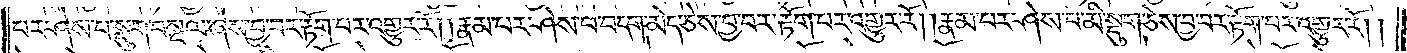པར་ཤེས་པ་སྡུག་བསྔལ་ཞེས་བྱ་བར་རྟོག་པར་འགྱུར་རོ། །རྣམ་པར་ཤེས་པ་བདག་མེད་ཅེས་བྱ་བར་རྟོག་པར་འགྱུར་རོ། །རྣམ་པར་ཤེས་པ་མི་སྡུག་ཅེས་བྱ་བར་རྟོག་པར་འགྱུར་རོ། །
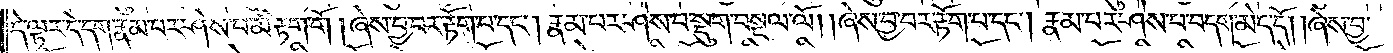དེ་ལྟར་དེ་དག་རྣམ་པར་ཤེས་པ་མི་རྟག་གོ། །ཞེས་བྱ་བར་རྟོག་པ་དང༌། རྣམ་པར་ཤེས་པ་སྡུག་བསྔལ་ལོ། །ཞེས་བྱ་བར་རྟོག་པ་དང༌། རྣམ་པར་ཤེས་པ་བདག་མེད་དོ། །ཞེས་བྱ་
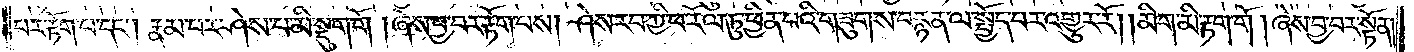པར་རྟོག་པ་དང༌། རྣམ་པར་ཤེས་པ་མི་སྡུག་གོ། །ཞེས་བྱ་བར་རྟོག་པས། ཤེས་རབ་ཀྱི་ཕ་རོལ་ཏུ་ཕྱིན་པའི་གཟུགས་བརྙན་ལ་སྤྱོད་པར་འགྱུར་རོ། །མིག་མི་རྟག་གོ། ཞེས་བྱ་བར་སྟོན།
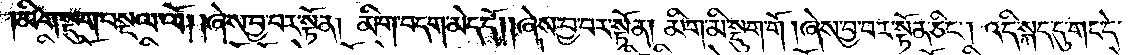མིག་སྡུག་བསྔལ་ལོ། །ཞེས་བྱ་བར་སྟོན། མིག་བདག་མེད་དོ། །ཞེས་བྱ་བར་སྟོན། མིག་མི་སྡུག་གོ། ཞེས་བྱ་བར་སྟོན་ཅིང༌། འདི་སྐད་དུ་གང་དེ་
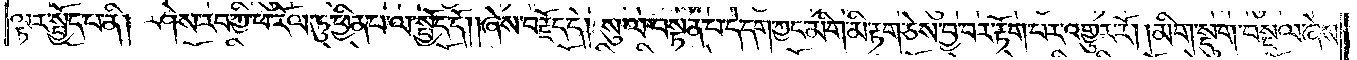ལྟར་སྤྱོད་པ་ནི། ཤེས་རབ་ཀྱི་ཕ་རོལ་ཏུ་ཕྱིན་པ་ལ་སྤྱོད་དོ། །ཞེས་བརྗོད་དེ། སུ་ལ་བསྟན་པ་དེ་དག་ཀྱང་མིག་མི་རྟག་ཅེས་བྱ་བར་རྟོག་པར་འགྱུར་རོ། །མིག་སྡུག་བསྔལ་ཞེས་
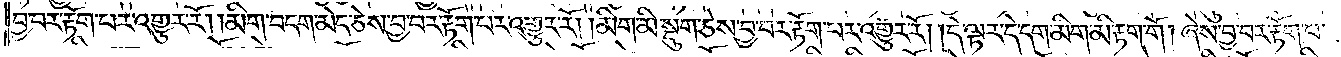བྱ་བར་རྟོག་པར་འགྱུར་རོ། །མིག་བདག་མེད་ཅེས་བྱ་བར་རྟོག་པར་འགྱུར་རོ། །མིག་མི་སྡུག་ཅེས་བྱ་བར་རྟོག་པར་འགྱུར་རོ། །དེ་ལྟར་དེ་དག་མིག་མི་རྟག་གོ། ཞེས་བྱ་བར་རྟོག་པ་
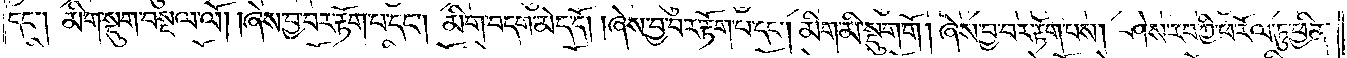དང༌། མིག་སྡུག་བསྔལ་ལོ། །ཞེས་བྱ་བར་རྟོག་པ་དང༌། མིག་བདག་མེད་དོ། །ཞེས་བྱ་བར་རྟོག་པ་དང༌། མིག་མི་སྡུག་གོ། ཞེས་བྱ་བར་རྟོག་པས། ཤེས་རབ་ཀྱི་ཕ་རོལ་ཏུ་ཕྱིན་
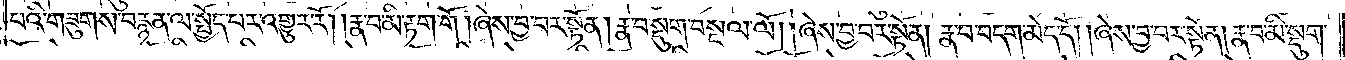པའི་གཟུགས་བརྙན་ལ་སྤྱོད་པར་འགྱུར་རོ། །རྣ་བ་མི་རྟག་གོ། ཞེས་བྱ་བར་སྟོན། རྣ་བ་སྡུག་བསྔལ་ལོ། །ཞེས་བྱ་བར་སྟོན། རྣ་བ་བདག་མེད་དོ། །ཞེས་བྱ་བར་སྟོན། རྣ་བ་མི་སྡུག་
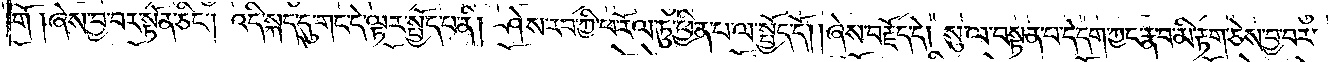གོ། ཞེས་བྱ་བར་སྟོན་ཅིང༌། འདི་སྐད་དུ་གང་དེ་ལྟར་སྤྱོད་པ་ནི། ཤེས་རབ་ཀྱི་ཕ་རོལ་ཏུ་ཕྱིན་པ་ལ་སྤྱོད་དོ། །ཞེས་བརྗོད་དེ། སུ་ལ་བསྟན་པ་དེ་དག་ཀྱང་རྣ་བ་མི་རྟག་ཅེས་བྱ་བར་
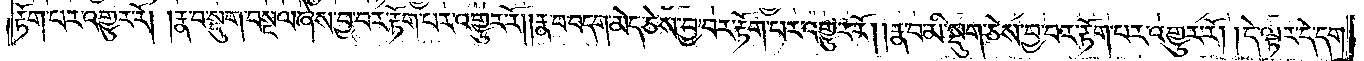རྟོག་པར་འགྱུར་རོ། །རྣ་བ་སྡུག་བསྔལ་ཞེས་བྱ་བར་རྟོག་པར་འགྱུར་རོ། །རྣ་བ་བདག་མེད་ཅེས་བྱ་བར་རྟོག་པར་འགྱུར་རོ། །རྣ་བ་མི་སྡུག་ཅེས་བྱ་བར་རྟོག་པར་འགྱུར་རོ། །དེ་ལྟར་དེ་དག་
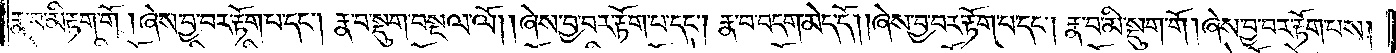རྣ་བ་མི་རྟག་གོ །ཞེས་བྱ་བར་རྟོག་པ་དང༌། རྣ་བ་སྡུག་བསྔལ་ལོ། །ཞེས་བྱ་བར་རྟོག་པ་དང༌། རྣ་བ་བདག་མེད་དོ། །ཞེས་བྱ་བར་རྟོག་པ་དང༌། རྣ་བ་མི་སྡུག་གོ། ཞེས་བྱ་བར་རྟོག་པས།
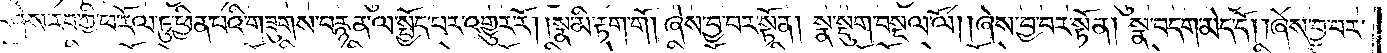ཤེས་རབ་ཀྱི་ཕ་རོལ་ཏུ་ཕྱིན་པའི་གཟུགས་བརྙན་ལ་སྤྱོད་པར་འགྱུར་རོ། །སྣ་མི་རྟག་གོ། ཞེས་བྱ་བར་སྟོན། སྣ་སྡུག་བསྔལ་ལོ། །ཞེས་བྱ་བར་སྟོན། སྣ་བདག་མེད་དོ། །ཞེས་བྱ་བར་
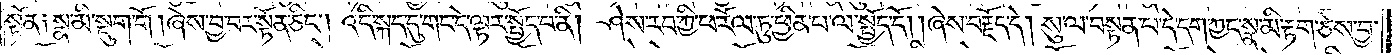སྟོན༑ སྣ་མི་སྡུག་གོ། ཞེས་བྱ་བར་སྟོན་ཅིང༌། འདི་སྐད་དུ་གང་དེ་ལྟར་སྤྱོད་པ་ནི། ཤེས་རབ་ཀྱི་ཕ་རོལ་ཏུ་ཕྱིན་པ་ལ་སྤྱོད་དོ། །ཞེས་བརྗོད་དེ། སུ་ལ་བསྟན་པ་དེ་དག་ཀྱང་སྣ་མི་རྟག་ཅེས་བྱ་
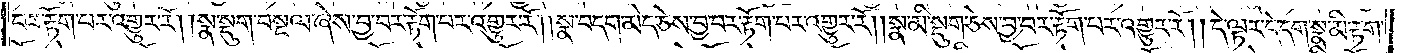བར་རྟོག་པར་འགྱུར་རོ། །སྣ་སྡུག་བསྔལ་ཞེས་བྱ་བར་རྟོག་པར་འགྱུར་རོ། །སྣ་བདག་མེད་ཅེས་བྱ་བར་རྟོག་པར་འགྱུར་རོ། །སྣ་མི་སྡུག་ཅེས་བྱ་བར་རྟོག་པར་འགྱུར་རོ། །དེ་ལྟར་དེ་དག་སྣ་མི་རྟག་
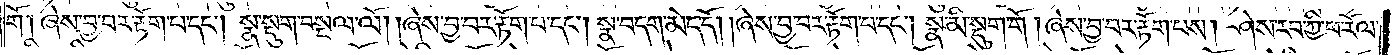གོ། ཞེས་བྱ་བར་རྟོག་པ་དང༌། སྣ་སྡུག་བསྔལ་ལོ། །ཞེས་བྱ་བར་རྟོག་པ་དང༌། སྣ་བདག་མེད་དོ། །ཞེས་བྱ་བར་རྟོག་པ་དང༌། སྣ་མི་སྡུག་གོ། ཞེས་བྱ་བར་རྟོག་པས། ཤེས་རབ་ཀྱི་ཕ་རོལ་
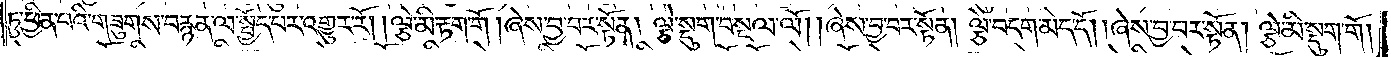ཏུ་ཕྱིན་པའི་གཟུགས་བརྙན་ལ་སྤྱོད་པར་འགྱུར་རོ། །ལྕེ་མི་རྟག་གོ། ཞེས་བྱ་བར་སྟོན། ལྕེ་སྡུག་བསྔལ་ལོ། །ཞེས་བྱ་བར་སྟོན། ལྕེ་བདག་མེད་དོ། །ཞེས་བྱ་བར་སྟོན། ལྕེ་མི་སྡུག་གོ།
